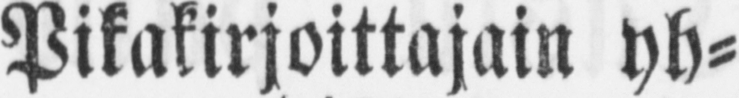Pikakirjoittajain yh-
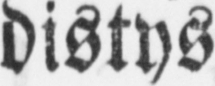distys
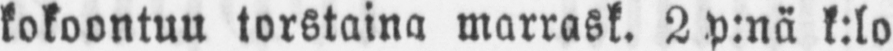kokoontun torstaina marrask. 2 p:nä k:lo
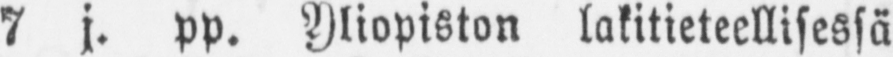7 j. pp. Yliopiston lakitieteellisessä
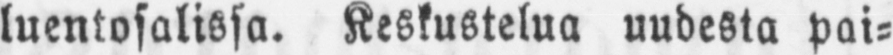luentosalissa. Keskustelua uudesta pai-
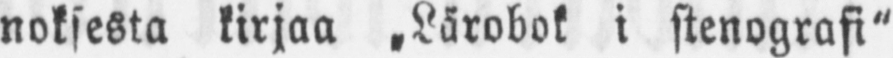noksesta kirjaa ˶Lärobok i stenografi"
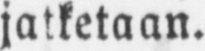jatketaan.
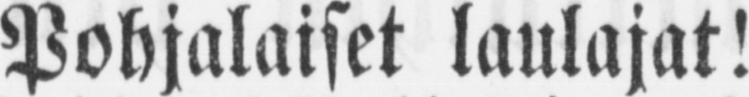Pohjalaiset laulajat!
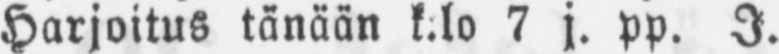Harjoitus tänään k.lo 7 j. pp. I.
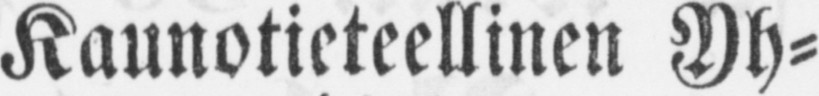Kaunotieteellinen Yh-
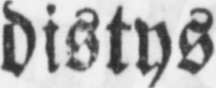distys
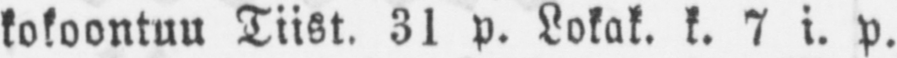kokoontuu Tiist. 31 p. Lokak. k. 7 i. p.
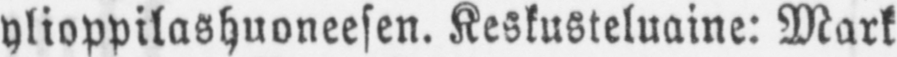ylioppilashuoneesen. Keskusteluaine: Mark
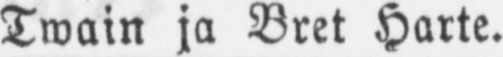Twain ja Bret Harte.
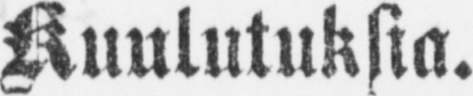Kuulutuksia.
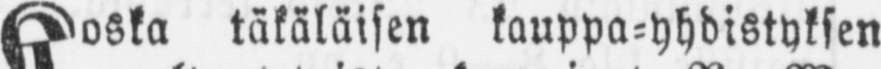Koska täkäläisen kauppa-yhdistyksen
